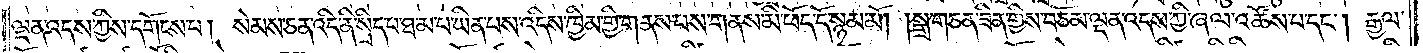ལྡན་འདས་ཀྱིས་དགོངས་པ། སེམས་ཅན་འདི་ནི་སྲིད་པ་ཐ་མ་པ་ཡིན་པས་འདིས་ཁྱིམ་གྱི་གནས་པས་གནས་མི་ཕོད་དོ་སྙམ་མོ། །སྒྲ་གཅན་ཟིན་གྱིས་བཅོམ་ལྡན་འདས་ཀྱི་ཞལ་འཚོས་པ་དང༌། རྒྱལ་
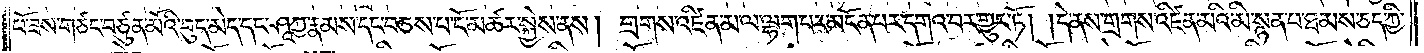པོ་ཟས་གཙང་བཙུན་མོའི་བུད་མེད་དང་ཤཱཀྱ་རྣམས་དང་བཅས་པ་ངོ་མཚར་སྐྱེས་ནས། གྲགས་འཛིན་མ་ལ་ལྷག་པར་མངོན་པར་དགའ་བར་གྱུར་ཏོ། །དེ་ནས་གྲགས་འཛིན་མའི་མི་སྙན་པ་ཐམས་ཅད་ཀྱི་
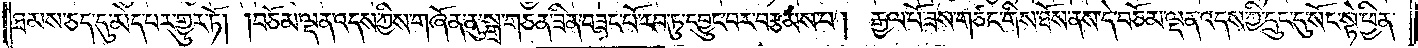ཐམས་ཅད་དུ་མེད་པར་གྱུར་ཏོ། །བཅོམ་ལྡན་འདས་ཀྱིས་གཞོན་ནུ་སྒྲ་གཅན་ཟིན་བཟང་པོ་རབ་ཏུ་དབྱུང་བར་བརྩམས་པ། རྒྱལ་པོས་ཟས་གཙང་གིས་ཐོས་ནས་དེ་བཅོམ་ལྡན་འདས་ཀྱི་དྲུང་དུ་སོང་སྟེ་ཕྱིན་
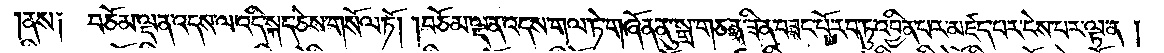ནས༑ བཅོམ་ལྡན་འདས་ལ་འདི་སྐད་ཅེས་གསོལ་ཏོ། །བཅོམ་ལྡན་འདས་གལ་ཏེ་གཞོན་ནུ་སྒྲ་གཅན་ཟིན་བཟང་པོ་རབ་ཏུ་འབྱིན་པར་མཛད་པར་ངེས་པར་ལྟ་ན།
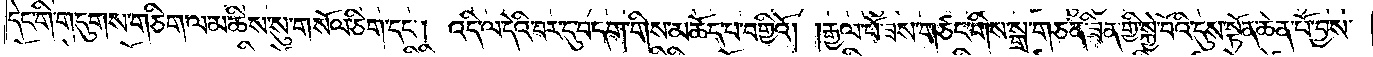དེང་གི་གདུགས་གཅིག་ལ་མཆིས་སུ་གསོལ་ཅིག་དང༌། འདི་ལ་དེའི་བར་དུ་བདག་གིས་མཆོད་པ་བགྱིའོ། །རྒྱལ་པོ་ཟས་གཙང་གིས་སྒྲ་གཅན་ཟིན་གྱི་སྐྱེ་བོའི་དུས་སྟོན་ཆེན་པོ་བྱས་
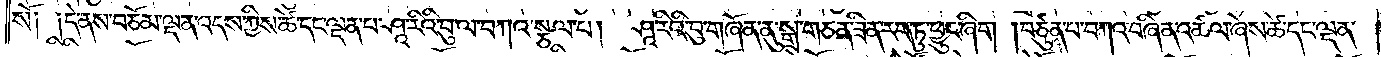སོ། །དེ་ནས་བཅོམ་ལྡན་འདས་ཀྱིས་ཚེ་དང་ལྡན་པ་ཤཱ་རིའི་བུ་ལ་བཀའ་སྩལ་པ། ཤཱ་རིའི་བུ་གཞོན་ནུ་སྒྲ་གཅན་ཟིན་རབ་ཏུ་ཕྱུང་ཞིག །བཙུན་པ་བཀའ་བཞིན་འཚལ་ཞེས་ཚེ་དང་ལྡན་
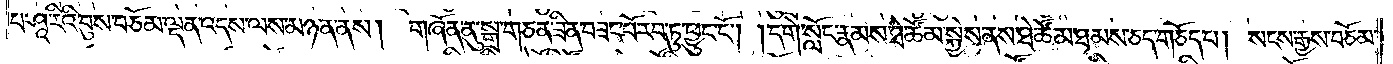པ་ཤཱ་རིའི་བུས་བཅོམ་ལྡན་འདས་ལས་མཉན་ནས། གཞོན་ནུ་སྒྲ་གཅན་ཟིན་བཟང་པོ་རབ་ཏུ་ཕྱུང་ངོ༌། །དགེ་སློང་རྣམས་ཐེ་ཚོམ་སྐྱེས་ནས་ཐེ་ཚོམ་ཐམས་ཅད་གཅོད་པ། སངས་རྒྱས་བཅོམ་
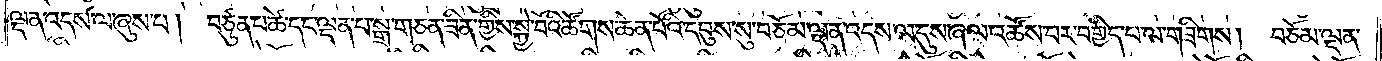ལྡན་འདས་ལ་ཞུས་པ། བཙུན་པ་ཚེ་དང་ལྡན་པ་སྒྲ་གཅན་ཟིན་གྱིས་སྐྱེ་བོའི་ཚོགས་ཆེན་པོའི་དབུས་སུ་བཅོམ་ལྡན་འདས་ལ་དུས་ཞལ་འཚོས་པར་བགྱིད་པ་ལ་གཟིགས། བཅོམ་ལྡན་
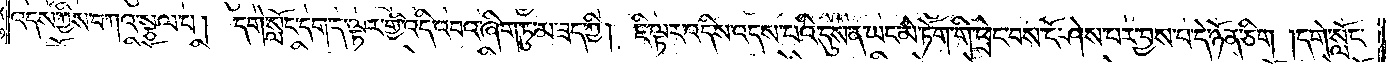འདས་ཀྱིས་བཀའ་སྩལ་པ། དགེ་སློང་དག་ད་ལྟར་གྱི་འདི་འབའ་ཞིག་ཏུ་མ་ཟད་ཀྱི། ཇི་ལྟར་འདིས་འདས་པའི་དུས་ན་ཡང་མེ་ཏོག་གི་ཕྲེང་བས་ངོ་ཤེས་པར་བྱས་པ་དེ་ཉོན་ཅིག །དགེ་སློང་
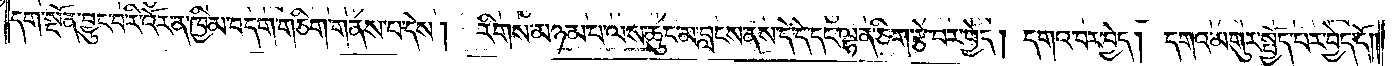དག་སྔོན་བྱུང་བ་རི་འོར་ན་ཁྱིམ་བདག་གཅིག་གནས་པ་དེས། རིགས་མཉམ་པ་ལས་ཆུང་མ་བླངས་ནས་དེ་དེ་དང་ལྷན་ཅིག་རྩེ་བར་བྱེད། དགའ་བར་བྱེད། དགའ་མགུར་སྤྱོད་པར་བྱེད་དོ༎
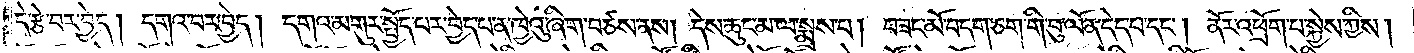དེ་རྩེ་བར་བྱེད། དགའ་བར་བྱེད། དགའ་མགུར་སྤྱོད་པར་བྱེད་པ་ན་ཁྱེའུ་ཞིག་བཙས་ནས། དེས་ཆུང་མ་ལ་སྨྲས་པ། བཟང་མོ་བདག་ཅག་གི་བུ་ལོན་དེད་པ་དང༌། ནོར་འཕྲོག་པ་སྐྱེས་ཀྱིས།
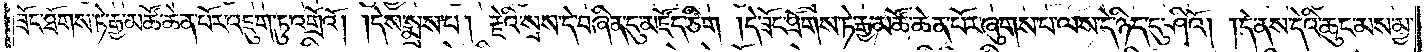ཟོང་ཐོགས་ཏེ་རྒྱ་མཚོ་ཆེན་པོར་འཇུག་ཏུ་འགྲོའོ། །དེས་སྨྲས་པ། རྗེའི་སྲས་དེ་བཞིན་དུ་མཛོད་ཅིག །དེ་ཟོང་ཐོགས་ཏེ་རྒྱ་མཚོ་ཆེན་པོར་ཞུགས་པ་ལས་དེ་ཉིད་དུ་ཤིའོ། །དེ་ནས་དེའི་ཆུང་མས་མྱ་
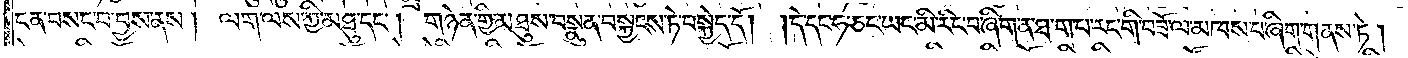ངན་བསང་བ་བྱས་ནས། ལག་ལས་ཀྱི་མཐུ་དང༌། གཉེན་གྱི་མཐུས་བསྣུན་བསྐྱངས་ཏེ་བསྐྱེད་དོ། །དེ་དང་ཧ་ཅང་ཡང་མི་རིང་བ་ཞིག་ན་ཐ་ག་པ་རང་གི་བཟོ་ལ་མཁས་པ་ཞིག་གནས་ཏེ།
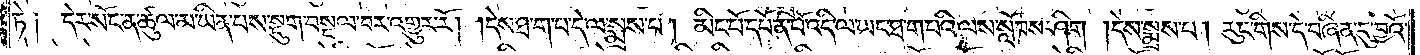ཏེ༑ དེར་སོང་ན་ཚུལ་མ་ཡིན་པས་སྡུག་བསྔལ་བར་འགྱུར་རོ། །དེས་ཐ་ག་པ་དེ་ལ་སྨྲས་པ། མིང་པོ་དཔོན་པོ་འདི་ལ་ཡང་ཐ་ག་པའི་ལས་སློབས་ཤིག །དེས་སྨྲས་པ། རུང་གིས་དེ་བཞིན་དུ་བྱའོ་
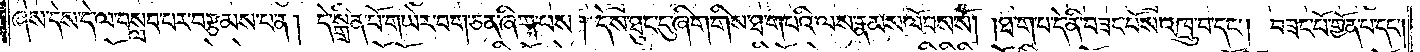ཞེས་དེས་དེ་ལ་བསླབ་པར་བརྩམས་པ་ན། དེ་སྒྲིན་པོ་གཡེར་བ་ག་ཅན་ཞིག་པས། དེས་ཐུང་ངུ་ཞིག་གིས་ཐ་ག་པའི་ལས་རྣམས་ལོབས་སོ། །ཐ་ག་པ་དེ་ནི་བཟང་པོས་འཁྲུ་བ་དང༌། བཟང་པོ་གྱོན་པ་དང༌།
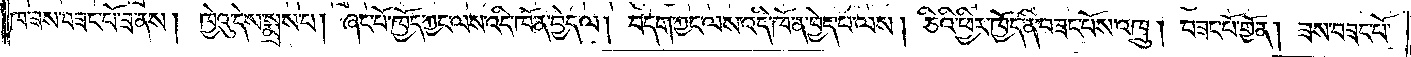ཁ་ཟས་བཟང་པོ་ཟ་ནས། ཁྱེའུ་དེས་སྨྲས་པ། ཞང་པོ་ཁྱོད་ཀྱང་ལས་འདི་ཁོ་ན་བྱེད་ལ། བདག་ཀྱང་ལས་འདི་ཁོ་ན་བྱེད་པ་ལས། ཅིའི་ཕྱིར་ཁྱོད་ནི་བཟང་པོས་འཁྲུ་།བཟང་པོ་གྱོན། ཟས་བཟང་པོ་
